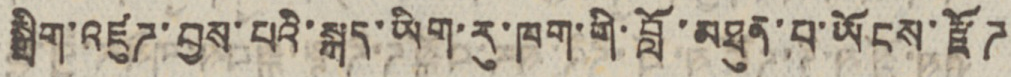སྒྲིག་འཛུཊ་བྱས་པའི་སྐད་ཡིག་རུ་ཁག་གི་བློ་མཐུན་པ་ཡོངས་རྫོཊ
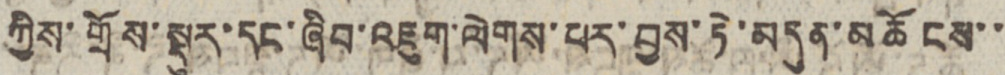ཀྱིས་གྲོས་སྡུར་དང་ཞིབ་འཇུག་ལེགས་པར་བྱས་ཏེ་མདུན་མཆོངས་་
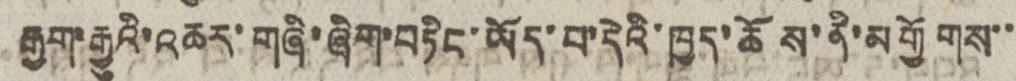རྒྱག་རྒྱུའི་འཆར་གཞི་ཞིག་བཏིང་ཡོད་པའི་དེའི་ཁྱད་ཆོས་ནི་མགྱོགས་་
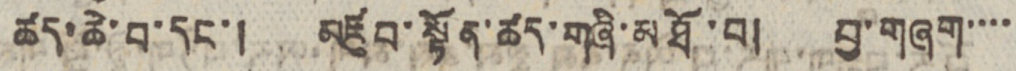ཚད་ཆེ་བ་དང་། མཛུབ་སྟོན་ཚད་གཞི་མཐོ་བ། བྱ་གཞག་་་་
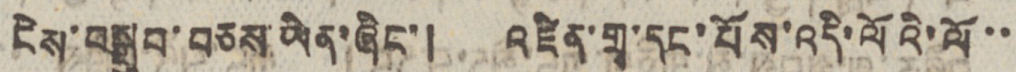ངེས་བསྒྲུབ་བཅས་ཡིན་ཞིང་། འཛིན་གྲྭ་དང་པོས་འདི་ལོའི་ལོ་་
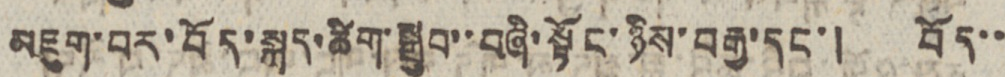མཇུག་པར་བོད་སྐད་ཚིག་སྒྲུབ་་བཞི་སྟོང་ཉིས་བརྒྱ་དང་། བོད་་
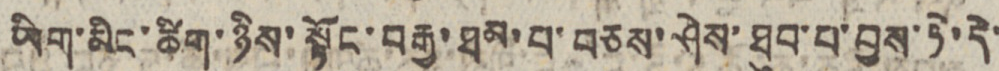ཡིག་མིང་ཚིག་ཉིས་སྟོང་བརྒྱ་ཐམ་པ་བཅས་ཤེས་ཐུབ་པ་བྱས་ཏེ་དེ་
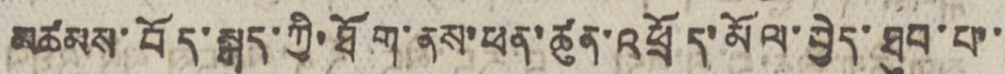མཚམས་བོད་སྐད་ཀྱི་ཐོག་ནས་ཕན་ཚུན་འཕྲོད་མོལ་བྱེད་ཐུབ་པ་་
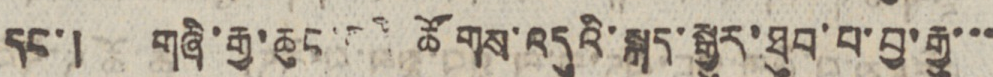དང་། གཞི་རྒྱ་ཆུང་བའི་ཚོགས་འདུའི་སྐད་སྒྱུར་ཐུབ་པ་བྱ་རྒྱུ་་་
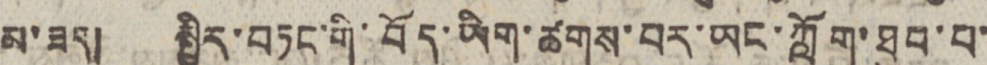མ་ཟད། སྤྱིར་བཏང་གི་བོད་ཡིག་ཚགས་བར་ཡང་ཀློག་ཐུབ་པ་
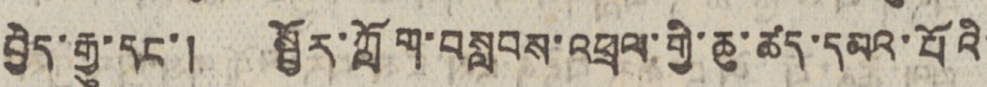བྱེད་རྒྱུ་དང་། སྦྱོར་ཀློག་བསླབས་འཕྲལ་གྱི་ཆུ་ཚད་དམའ་པོའི་
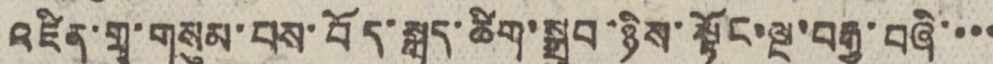འཛིན་གྲྭ་གསུམ་པས་བོད་སྐད་ཚིག་སྒྲུབ་ཉིས་སྟོང་ལྔ་བརྒྱ་བཞི་་་་
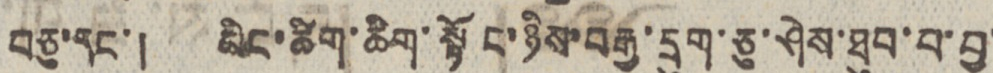བཅུ་དང་། མིང་ཚིག་ཆིག་སྟོང་ཉིས་བརྒྱ་དྲུག་ཅུ་ཤེས་ཐུབ་པ་བྱ་
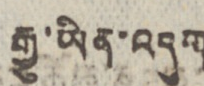རྒྱུ་ཡིན་འདུག
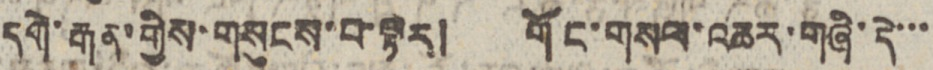དགེ་རྒན་གྱིས་གསུངས་བ་ལྟར། གོང་གསལ་འཆར་གཞི་དེ་་་
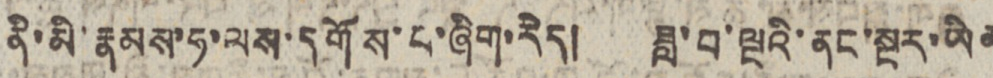ནི་མི་རྣམས་ཧ་ལས་དགོས་པ་ཞིག་རེད། ཟླ་བ་ལྔའི་ནང་སྔར་ཡིན
